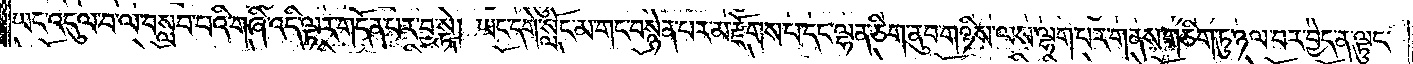ཡང་འདུལ་བ་ལ་བསླབ་པའི་གཞི་འདི་ལྟར་གདོན་པར་བྱ་སྟེ། ཡང་དགེ་སློང་མ་གང་བསྙེན་པར་མ་རྫོགས་པ་དང་ལྷན་ཅིག་ནུབ་གཉིས་ལས་ལྷག་པར་གནས་གཅིག་ཏུ་ཉལ་བར་བྱེད་ན་ལྟུང་
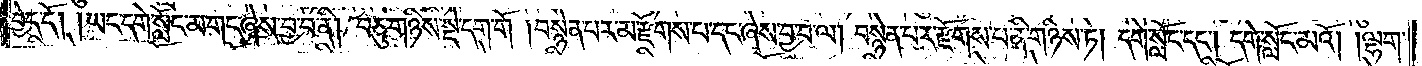བྱེད་དོ། །ཡང་དགེ་སློང་མ་གང་ཞེས་བྱ་བ་ནི། བཅུ་གཉིས་སྡེ་དག་གོ །བསྙེན་པར་མ་རྫོགས་པ་དང་ཞེས་བྱ་བ་ལ། བསྙེན་པར་རྫོགས་པ་ནི་གཉིས་ཏེ། དགེ་སློང་དང༌། དགེ་སློང་མའོ། །ལྷག་
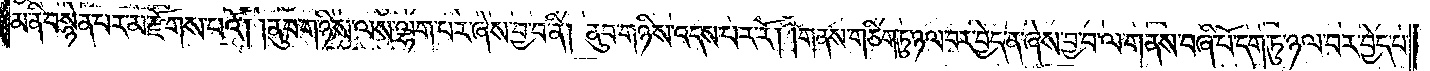མ་ནི་བསྙེན་པར་མ་རྫོགས་པའོ། །ནུབ་གཉིས་ལས་ལྷག་པར་ཞེས་བྱ་བ་ནི། ནུབ་གཉིས་འདས་པར་རོ། །གནས་གཅིག་ཏུ་ཉལ་བར་བྱེད་ན་ཞེས་བྱ་བ་ལ་གནས་བཞི་པོ་དག་ཏུ་ཉལ་བར་བྱེད་པ་
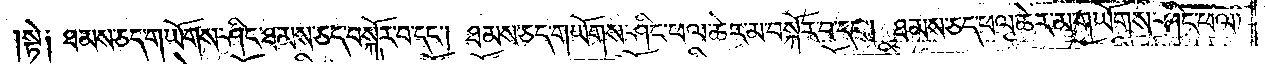སྟེ༑ ཐམས་ཅད་གཡོགས་ཤིང་ཐམས་ཅད་བསྐོར་བ་དང༌། ཐམས་ཅད་གཡོགས་ཤིང་ཕལ་ཆེར་མ་བསྐོར་བ་དང༌། ཐམས་ཅད་ཕལ་ཆེར་མ་གཡོགས་ཤིང་ཕལ་
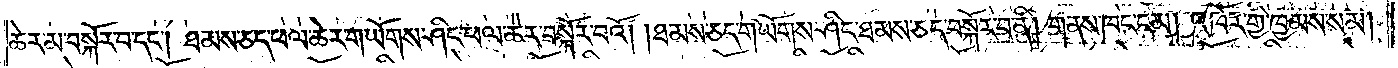ཆེར་མ་བསྐོར་བ་དང༌། ཐམས་ཅད་ཕལ་ཆེར་གཡོགས་ཤིང་ཕལ་ཆེར་བསྐོར་བའོ། །ཐམས་ཅད་གཡོགས་ཤིང་ཐམས་ཅད་བསྐོར་བ་ནི། གནས་ཁང་ངམ། འཁོར་གྱི་ཁྱམས་སམ།
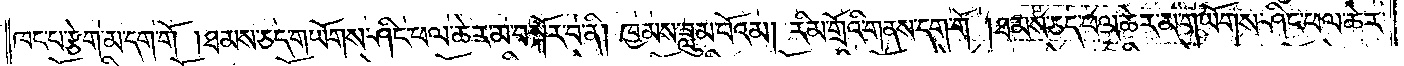ཁང་པ་རྩེག་མ་དག་གོ །ཐམས་ཅད་གཡོགས་ཤིང་ཕལ་ཆེར་མ་བསྐོར་བ་ནི། ཁྱམས་ཟླུམ་པོའམ། རིམ་གྲོའི་གནས་དག་གོ །ཐམས་ཅད་ཕལ་ཆེར་མ་གཡོགས་ཤིང་ཕལ་ཆེར་
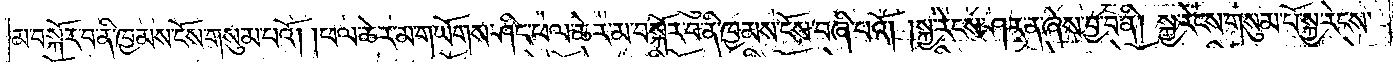མ་བསྐོར་བ་ནི་ཁྱམས་ངོས་གསུམ་པའོ། །ཕལ་ཆེར་མ་གཡོགས་ཤིང་ཕལ་ཆེར་མ་བསྐོར་བ་ནི་ཁྱམས་ངོས་བཞི་པའོ། །སྐྱ་རེངས་ཤར་ན་ཞེས་བྱ་བ་ནི། སྐྱ་རེངས་གསུམ་པོ་སྐྱ་རེངས་
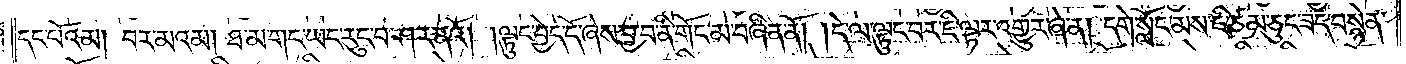དང་པོའམ། བར་མའམ། ཐ་མ་གང་ཡང་རུང་བ་ཤར་ནའོ། །ལྟུང་བྱེད་དོ་ཞེས་བྱ་བ་ནི་གོང་མ་བཞིན་ནོ། །དེ་ལ་ལྟུང་བར་ཇི་ལྟར་འགྱུར་ཞེ་ན། དགེ་སློང་མས་ཇི་ཙམ་ཅུང་ཟད་བསྙེན་
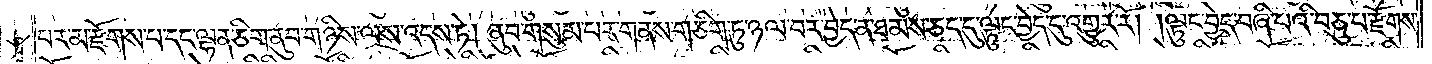པར་མ་རྫོགས་པ་དང་ལྷན་ཅིག་ནུབ་གཉིས་ལས་འདས་ཏེ། ནུབ་གསུམ་པར་གནས་གཅིག་ཏུ་ཉལ་བར་བྱེད་ན་ཐམས་ཅད་དུ་ལྟུང་བྱེད་དུ་འགྱུར་རོ། །ལྟུང་བྱེད་བཞི་པའི་བཅུ་པ་རྫོགས་
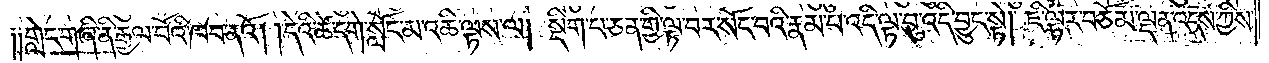༑༑གླེང་གཞི་ནི་རྒྱལ་པོའི་ཁབ་ནའོ། །དེའི་ཚེ་དགེ་སློང་མ་འཆི་ལྟས་ལ། སྡིག་པ་ཅན་གྱི་ལྟ་བར་སོང་བའི་རྣམ་པ་འདི་ལྟ་བུ་འདི་བྱུང་སྟེ། ཇི་ལྟར་བཅོམ་ལྡན་འདས་ཀྱིས་
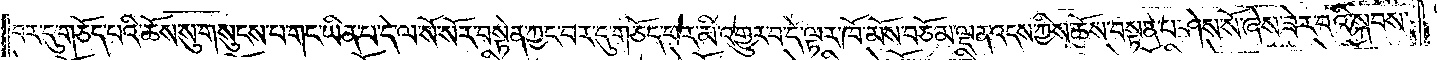བར་དུ་གཅོད་པའི་ཆོས་སུ་གསུངས་པ་གང་ཡིན་པ་དེ་ལ་སོ་སོར་བསྟེན་ཀྱང་བར་དུ་གཅོད་པར་མི་འགྱུར་བ་དེ་ལྟར་ཁོ་མོས་བཅོམ་ལྡན་འདས་ཀྱིས་ཆོས་བསྟན་པ་ཤེས་སོ་ཞེས་ཟེར་བའི་སྐབས་
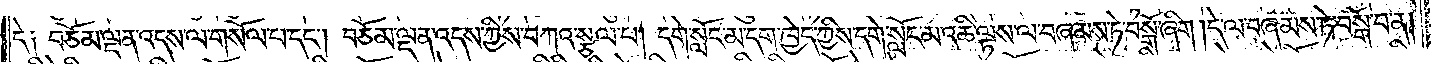དེ༑ བཅོམ་ལྡན་འདས་ལ་གསོལ་པ་དང༌། བཅོམ་ལྡན་འདས་ཀྱིས་བཀའ་སྩལ་པ། དགེ་སློང་མ་དག་ཁྱེད་ཀྱིས་དགེ་སློང་མ་འཆི་ལྟས་ལ་བཞམས་ཏེ་བསྒོ་ཞིག །དེ་ལ་བཞམས་ཏེ་བསྒོ་བ་ན།
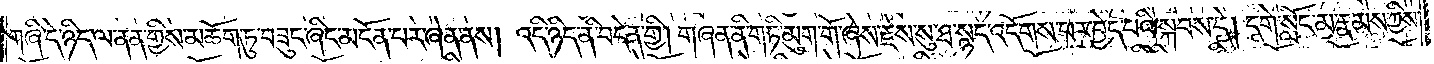གཞི་དེ་ཉིད་ལ་ནན་གྱིས་མཆོག་ཏུ་བཟུང་ཞིང་མངོན་པར་ཞེན་ནས། འདི་ཉིད་ནི་བདེན་གྱི། གཞན་ནི་གཏི་མུག་གོ་ཞེས་རྗེས་སུ་ཐ་སྙད་འདོགས་པར་བྱེད་པའི་སྐབས་དེ། དགེ་སློང་མ་རྣམས་ཀྱིས་
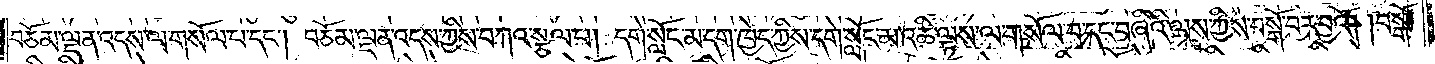བཅོམ་ལྡན་འདས་ལ་གསོལ་པ་དང༌། བཅོམ་ལྡན་འདས་ཀྱིས་བཀའ་སྩལ་པ། དགེ་སློང་མ་དག་ཁྱེད་ཀྱིས་དགེ་སློང་མ་འཆི་ལྟས་ལ་གསོལ་པ་དང་བཞིའི་ལས་ཀྱིས་བསྒོ་བར་བྱའོ། །བསྒོ་
